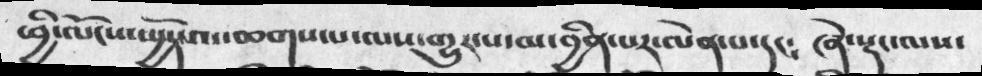ཕྱི་ལོངས་སྤྱོད་ལ་ཆགས་པ་ལས་གྱུར་པ་མ་བྱིན་པར་ལེན་པ་དང༴ ཞེ་སྡང་ལས་
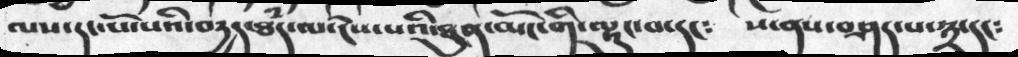ལས་དང་པོ་པའི་བདྱདད་ཐཾད་ལ་ངེས་པའི་ཐུན་མོང་གི་ལྟུང་བ་དང༴ ས་ནས་བཤད་པ་༣་དང༴
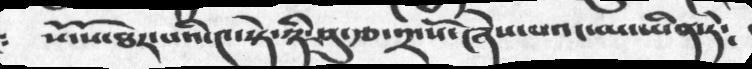སོ་སོ་ཐར་པའི་༤་སྟེ་ཉི་ཤུ་རྩ་༢་སོ་ཞེས་པའང་མ་ཡིན་ཏེ༴
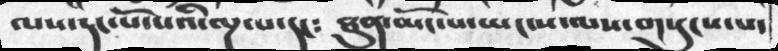ལས་དང་པོ་པའི་ལྔ་པ་དང༴ ཐུན་མོང་པ་ཡང་པ་ལས་གསུངས་པ་
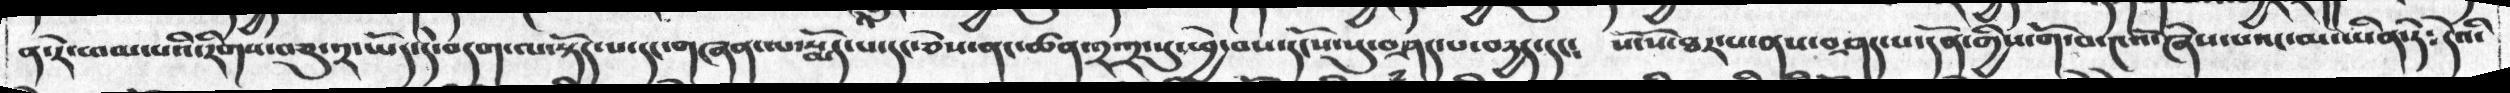ན་རེ་ཕམ་པའི་རིགས་བཅུ་༢་ཡོད་དེ་བདག་ལ་སྟོད་པ་དང་གཞན་ལ་སྨོད་པ་དང་ཅེས་ནང་ཚན་༢་༢་སུ་ཕྱེ་བས་དངོས་སུ་བཤད་པ་བདྱད་དང༴   སོ་སོ་ཐར་པ་ནས་བཤད་པ་དོན་གྱིས་གོ་བ་༤འོ་ཞེས་པའང་མ་ཡིན་ཏེ༴དེའི་
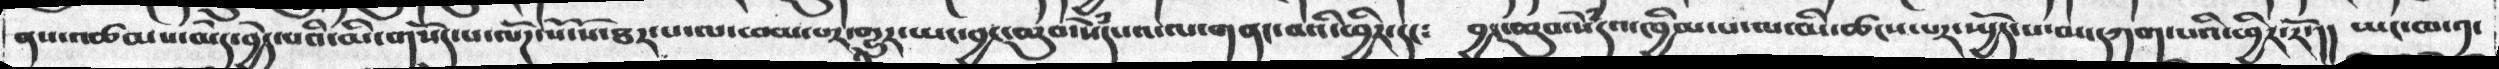ནས་འཚམས་མེད་བྱེད་པའི་མི་གསོད་པ་ལོཌ་སོ་སོ་ཐར་པ་ལ་ཕམ་པར་གྱུར་ཡང་བྱང་ཆུབ་སེཾདཔའ་ལ་གནང་བའི་ཕྱིར་དང༴ བྱང་ཆུབ་སེཾདའ་ཁྱིམ་པ་ལ་མི་ཚངས་པར་སྤྱོད་པ་མ་དཀག་པའི་ཕྱིར་རོ་།། ཡང་ཁ་༡་
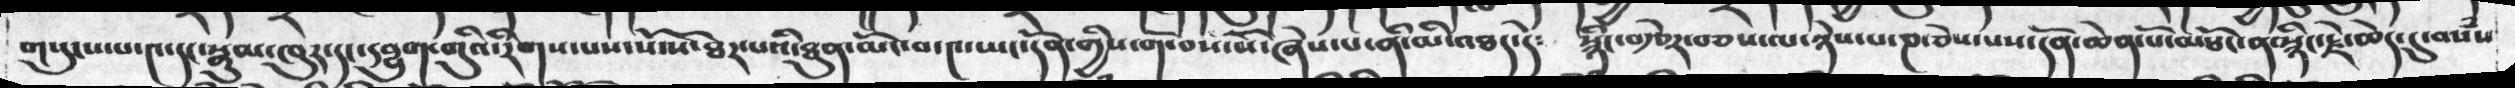གསུངས་པ་༤་དང་སྣུམ་ཁུར་དང་དབྱུག་གུའི་རིགས་པས་སོ་སོ་ཐར་པའི་ཐུན་མོང་བ་༤་ཡང་དོན་གྱིས་གོ་བས་སོ་ཞེས་པ་ནི་མི་འཐད་དེ༴ སྙིང་བརྩེར་བཅས་ལ་ཉེས་པ་ཎ་ཅེས་པས་དོན་ཆེན་པོ་མཐོང་ན་སྙིང་རྗེ་ཆེད་དུ་བསཾས
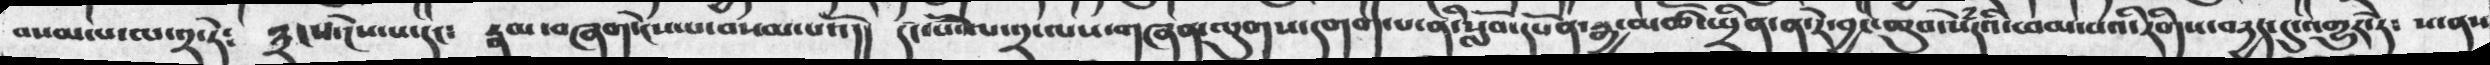བསམ་པ་ལ་༢་ཏེ༴ ༣་པ་ངེས་པ་དང༴ རྣམ་བཞག་ངེས་པ་བསམ་པའོ།། དང་པོ་ལ་༢་ལས་གཞན་ལུགས་དགག་པ་ནི་སློབ་དཔོན་རྒྱ་མཚོ་ཕྲིན་ན་རེ་བྱང་ཆུབ་སེཾདའི་ཕམ་པའི་རིགས་བདྱད་དུ་འགྱུར་ཏེ༴ ས་ནས
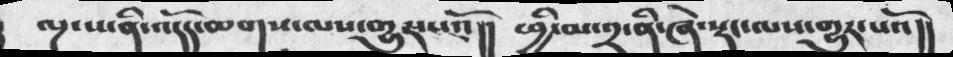ལྔ་པ་ནི་འདོད་ཆགས་ལས་གྱུར་པའོ།།  ཕྱི་མ་༢་ནི་ཞེ་སྡང་ལས་གྱུར་པའོ།།
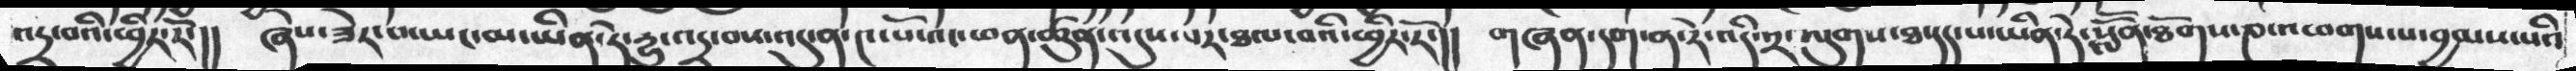འདྲ་བའི་ཕྱིར་རོ་།།   ཞེས་ཟེར་པ་ཡང་མ་ཡིན་ཏེ་དྱུ་འདྲ་བས་འདུ་ན་༤་པོ་འང་ཕན་ཚུན་འདུས་པར་ཐལ་བའི་ཕྱིར་རོ་།།  གཞན་དག་ན་རེ་འདི་༢་ལུགས་ཐ་དད་པ་ཡིན་ཏེ་སློོན་ཐོགས་ཎ་འཕགས་པ་བྱམས་པའི
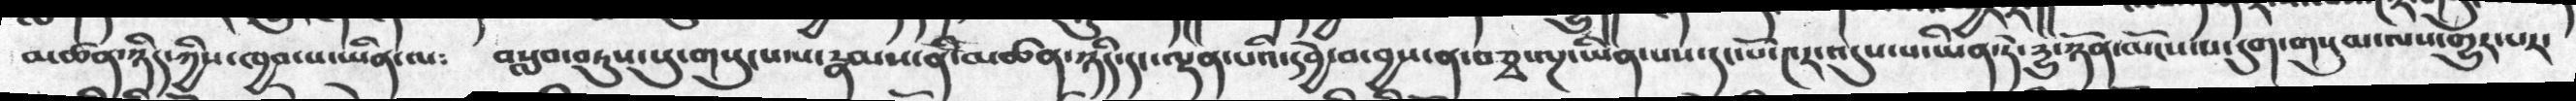མཚན་ཉིད་ཀྱིས་ཁྱབ་པ་ཡིན་ལ༴  བསླབ་བཏུས་སུ་གསུངས་པ་རྣམས་ནི་མཚན་ཉིད་དང་ལྡན་པའི་དབྱེ་བ་བྱས་ན་བཅྭ་ལྔ་ཡིན་པས་དང་པོ་༤ར་འདུས་པ་ཡིན་ཏེ་དྱུ་ཉོན་མོངས་པ་དུག་གསུམ་ལས་གྱུར་པར་
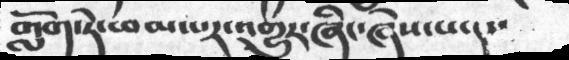གློག་ཏེ་ཕམ་པར་འགྱུར་ཞིང་ཞེས་པ་དང་
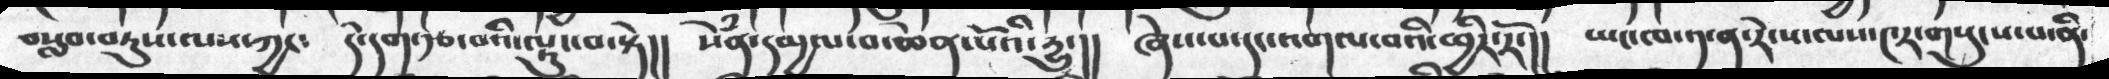བསླབ་བཏུས་ལས་ཀྱང༴   དེ་དག་རྩ་བའི་ལྟུང་བ་ཡིན་སྟེ།།   སེྃན་དམྱལ་བ་ཆེན་པོའི་དྱུ་།།  ཞེས་པ་དང་འགལ་བའི་ཕྱིར་རོ་།།   ཡང་ཁ་༡་ན་རེ་ས་ལས་༤ར་གསུངས་པ་ནི་
